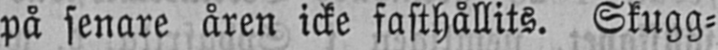på senare åren icke fasthållits. Skugg-
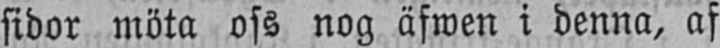sidor möta oss nog äfwen i denna, af
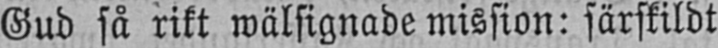Gud så rikt wälsignade mission: särskildt
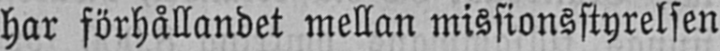har förhållandet mellan missionsstyrelsen
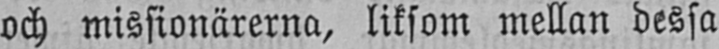och missionärerna, liksom mellan dessa
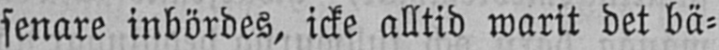senare inbördes, icke alltid warit det bä-
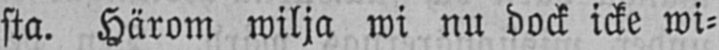sta. Härom wilja wi nu dock icke wi-
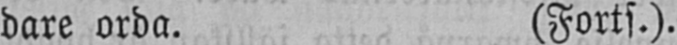dare orda. (Forts.).
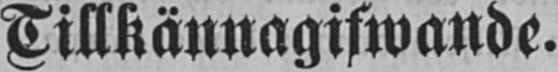Tillkännagifwande.
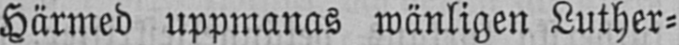Härmed uppmanas wänligen Luther-
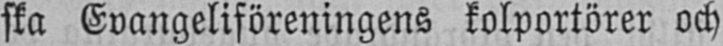ska Evangeliföreningens kolportörer och
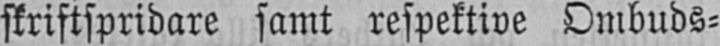skriftspridare samt respektive Ombuds-
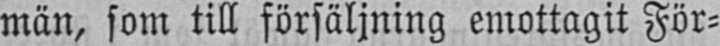män, som till försäljning emottagit För-
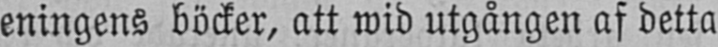eningens böcker, att wid utgången af detta
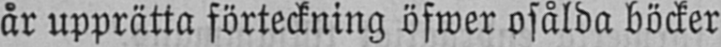år upprätta förteckning öfwer osålda böcker
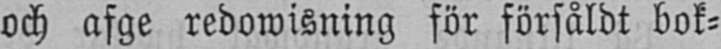och afge redowisning för försåldt bok-
